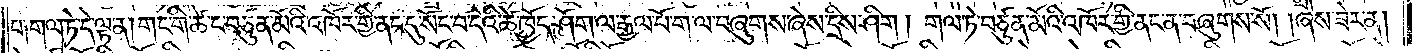པ༑ གལ་ཏེ་དེ་ལྟ་ན། གང་གི་ཚེ་ང་བཙུན་མོའི་འཁོར་གྱི་ནང་དུ་སོང་བ་དེའི་ཚེ་ཁྱོད་ཤོག་ལ་རྒྱལ་པོ་ག་ལ་བཞུགས་ཞེས་དྲིས་ཤིག །གལ་ཏེ་བཙུན་མོའི་འཁོར་གྱི་ནང་ན་བཞུགས་སོ། །ཞེས་ཟེར་ན།
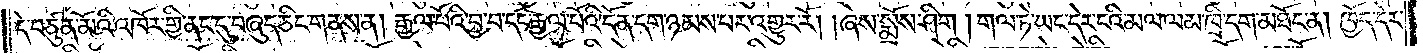དེ་བཙུན་མོའི་འཁོར་གྱི་ནང་དུ་བཞུད་ཅིང་གནས་ན། རྒྱལ་པོའི་བྱ་བ་དང་རྒྱལ་པོའི་དོན་དག་ཉམས་པར་འགྱུར་རོ། །ཞེས་སྨྲོས་ཤིག །གལ་ཏེ་ཡང་དེར་ངའི་མལ་ལམ་ཁྲི་དག་མཐོང་ན། ཁྱོད་དེར་
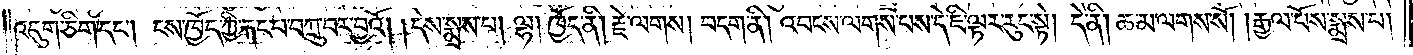འདུག་ཅིག་དང༌། ངས་ཁྱོད་ཀྱི་རྐང་པ་བཀྲུ་བར་བྱའོ། །དེས་སྨྲས་པ། ལྷ། ཁྱོད་ནི། རྗེ་ལགས། བདག་ནི། འབངས་ལགས་པས་དེ་ཇི་ལྟར་རུང་སྟེ། དེ་ནི། ཆ་མ་ལགས་སོ། །རྒྱལ་པོས་སྨྲས་པ།
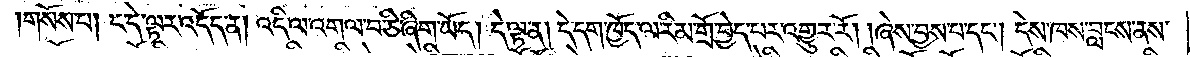གསོས་པ། ང་དེ་ལྟར་འདོད་ན། འདི་ལ་འགལ་བ་ཅི་ཞིག་ཡོད། དེ་ལྟ་ན། དེ་དག་ཁྱོད་ལ་རིམ་གྲོ་བྱེད་པར་འགྱུར་རོ། །ཞེས་བྱས་པ་དང༌། དེས་ཁས་བླངས་ནས་
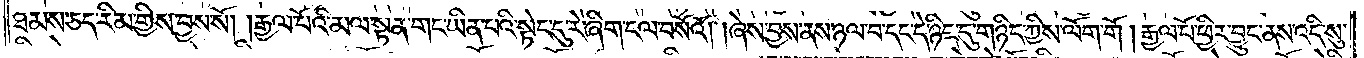ཐམས་ཅད་རིམ་གྱིས་བྱས་སོ། །རྒྱལ་པོའི་མལ་སྟན་གང་ཡིན་པའི་སྟེང་དུ་རེ་ཞིག་ངལ་བསོའོ། །ཞེས་བྱས་ནས་ཉལ་བ་དང་དེ་ཉིད་དུ་གཉིད་ཀྱིས་ལོག་གོ །རྒྱལ་པོ་ཕྱིར་བྱུང་ནས་འདི་སུ་
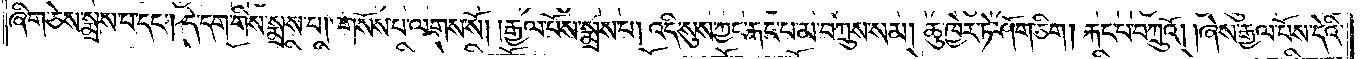ཞིག་ཅེས་སྨྲས་པ་དང༌། དེ་དག་གིས་སྨྲས་པ། གསོས་པ་ལགས་སོ། །རྒྱལ་པོས་སྨྲས་པ། འདི་སུས་ཀྱང་རྐང་པ་མ་བཀྲུས་སམ། ཆུ་ཁྱེར་ཏེ་ཤོག་ཅིག །རྐང་པ་བཀྲུའོ། །ཞེས་རྒྱལ་པོས་དེའི་
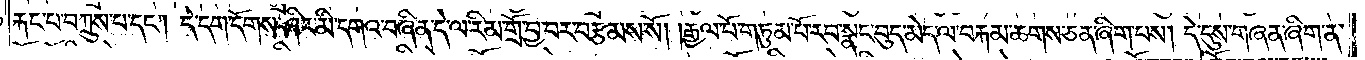རྐང་པ་བཀྲུས་པ་དང༌། དེ་དག་དོགས་ཤིང་མི་དགའ་བཞིན་དེ་ལ་རིམ་གྲོ་བྱ་བར་བརྩམས་སོ། །རྒྱལ་པོ་གཏུམ་པོ་རབ་སྣང་བུད་མེད་ལ་བརྐམ་ཆགས་ཅན་ཞིག་པས། དེ་དུས་གཞན་ཞིག་ན་
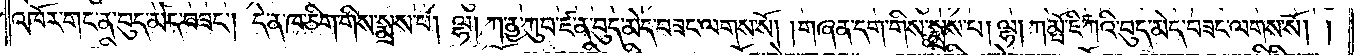འཁོར་གང་ན་བུད་མེད་བཟང༌། དེ་ན་ཁ་ཅིག་གིས་སྨྲས་པ། ལྷ། ཀ་ནྱ་ཀུབ་ཛ་ན་བུད་མེད་བཟང་ལགས་སོ། །གཞན་དག་གིས་སྨྲས་པ། ལྷ། ཀམྤོ་ཇི་ཀའི་བུད་མེད་བཟང་ལགས་སོ། །
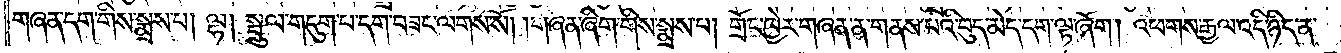གཞན་དག་གིས་སྨྲས་པ། ལྷ། སྦྲུལ་གདུག་པ་དག་བཟང་ལགས་སོ། །གཞན་ཞིག་གིས་སྨྲས་པ། གྲོང་ཁྱེར་གཞན་ན་གནས་པའི་བུད་མེད་དག་ལྟ་ཞོག །འཕགས་རྒྱལ་འདི་ཉིད་ན་
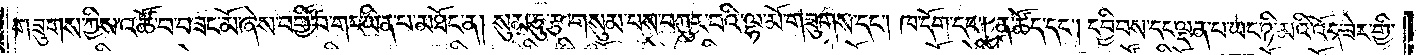གཟུགས་ཀྱིས་འཚོ་བ་བཟང་མོ་ཞེས་བགྱི་བ་གང་ཡིན་པ་མཐོང་ན། སུམ་ཅུ་རྩ་གསུམ་པས་བཀུར་བའི་ལྷ་མོ་གཟུགས་དང༌། ཁ་དོག་དང༌། ན་ཚོད་དང༌། དབྱིབས་དང་ལྡན་པ་ཡང་ཉི་མའི་འོད་ཟེར་གྱི་
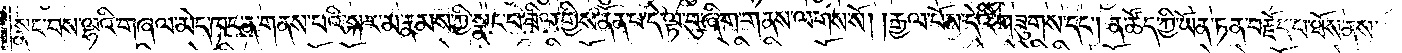སྣང་བས་ལྷའི་གཞལ་མེད་ཁང་ན་གནས་པའི་སྐར་མ་རྣམས་ཀྱི་སྣང་བ་ཟིལ་གྱིས་ནོན་པ་དེ་ལྟ་བུ་ཞིག་གནས་ལགས་སོ། །རྒྱལ་པོས་དེའི་གཟུགས་དང༌། ན་ཚོད་ཀྱི་ཡོན་ཏན་བརྗོད་པ་ཐོས་ནས་
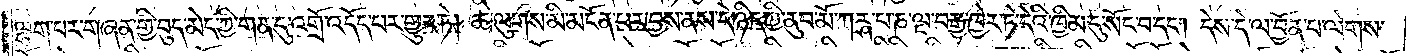ལྷག་པར་གཞན་གྱི་བུད་མེད་ཀྱི་གན་དུ་འགྲོ་འདོད་པར་གྱུར་ཏེ། ཆ་ལུགས་མི་མངོན་པར་བྱས་ནས་དེ་ཉིད་ཀྱི་ནུབ་མོ་ཀཪྴ་པ་ཎ་ལྔ་བརྒྱ་ཁྱེར་ཏེ་དེའི་ཁྱིམ་དུ་སོང་བ་དང༌། དེས་དེ་ལ་བྱོན་པ་ལེགས་
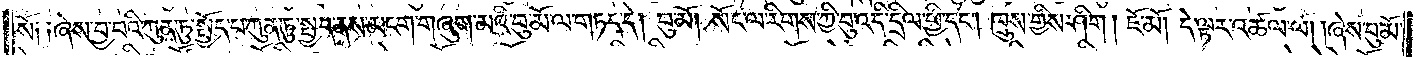སོ༑ ༑ཞེས་བྱ་བའི་ཀུན་ཏུ་སྤྱོད་པ་ཀུན་ཏུ་སྤྱད་ནས་མངག་གཞུག་མའི་བུ་མོ་ལ་གཏད་དེ། བུ་མོ། སོང་ལ་རིགས་ཀྱི་བུ་འདི་དྲིལ་ཕྱི་དང༌། ཁྲུས་གྱིས་ཤིག །ཇོ་མོ། དེ་ལྟར་འཚལ་ལོ། །ཞེས་བུ་མོ་
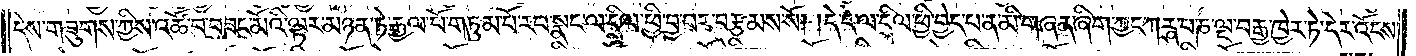དེས་གཟུགས་ཀྱིས་འཚོ་བ་བཟང་མོའི་ལྟར་མཉན་ཏེ་རྒྱལ་པོ་གཏུམ་པོ་རབ་སྣང་ལ་དྲིལ་ཕྱི་བྱ་བར་བརྩམས་སོ། །དེ་དེ་ལ་དྲིལ་ཕྱི་བྱེད་པ་ན་མི་གཞན་ཞིག་ཀྱང་ཀཪྴ་པ་ཎ་ལྔ་བརྒྱ་ཁྱེར་ཏེ་དེར་འོངས་
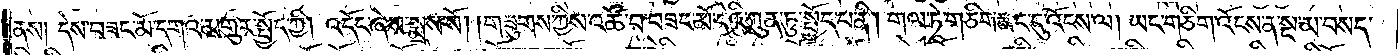ནས། དེས་བཟང་མོ་དགའ་མགུར་སྤྱོད་ཀྱི། འདོང་ཞེས་སྨྲས་སོ། གཟུགས་ཀྱིས་འཚོ་བ་བཟང་མོ་དེའི་ཀུན་ཏུ་སྤྱོད་པ་ནི། གལ་ཏེ་གཅིག་ནང་དུ་འོངས་ལ། ཡང་གཅིག་འོངས་ན་སྔ་མ་བསད་
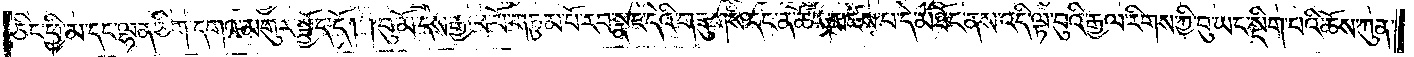ཅིང་ཕྱི་མ་དང་ལྷན་ཅིག་དགའ་མགུར་སྤྱོད་དོ། །བུ་མོ་དེས་རྒྱལ་པོ་གཏུམ་པོ་རབ་སྣང་དེའི་གཟུགས་དང་ན་ཚོད་མཛེས་པ་དེ་མཐོང་ནས་འདི་ལྟ་བུའི་རྒྱལ་རིགས་ཀྱི་བུ་ཡང་སྡིག་པའི་ཆོས་ཀུན་
